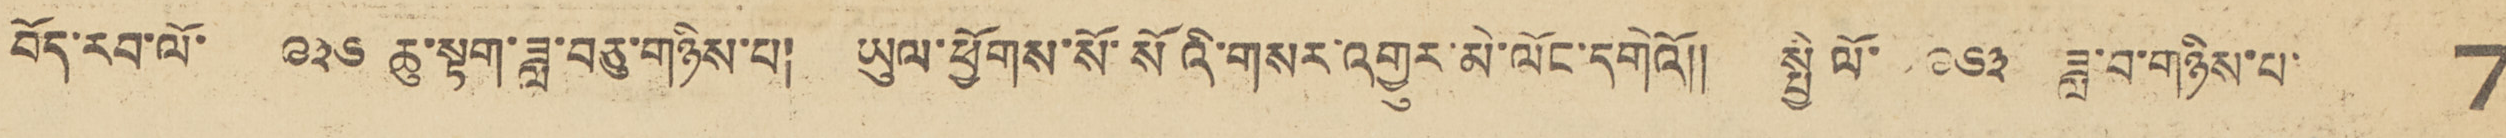བོད་རབ་ལོ་ ༩༣༦ ཆུ་སྟག་ཟླ་བཅུ་གཉིས་པ། ཡུལ་ཕྱོགས་སོ་སོའི་གསར་འགྱུར་མེ་ལོང་དགེའོ།། སྤྱི་ལོ་ ༩༦༣ ཟླ་བ་གཉིས་པ་ 7
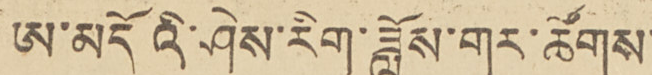ཨ་མདོའི་ཤེས་རིག་ཟློས་གར་ཚོགས་
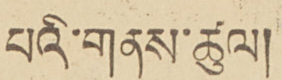པའི་གནས་ཚུལ།
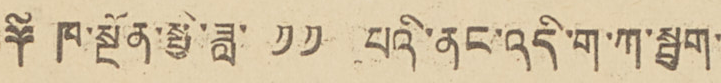༈ ཁ་སྔོན་སྤྱི་ཟླ་ ༡༡ པའི་ནང་འདི་ག་ཀ་སྦུག་
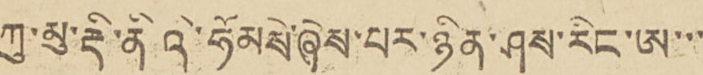ཀུ་མུ་རྡི་ནིའི་ཧོམསེ་ཞེས་པར་ཉིན་ཤས་རིང་ཨ་་་
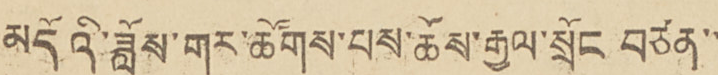མདོའི་ཟློས་གར་ཚོགས་པས་ཆོས་རྒྱལ་སྲོང བཙན་་
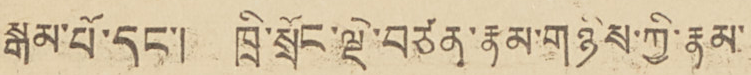སྒམ་པོ་དང་། ཁྲི་སྲོང་ལྡེ་བཙན་རྣམ་གཉིས་ཀྱི་རྣམ་
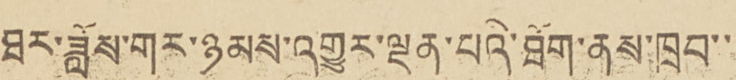ཐར་ཟློས་གར་ཉམས་འགྱུར་ལྡན་པའི་ཐོག་ནས་ཁྲབ་་་
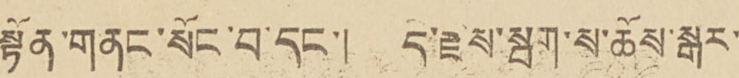སྟོན་གནང་སོང་བ་དང་། དེ་རྗས་སྦག་ས་ཆོས་སྒར་
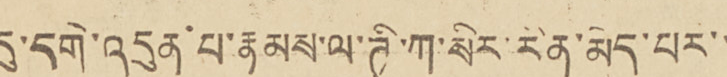དུ་དགེ་འདུན་པ་རྣམས་ལ་ཊེ་ཀ་སིར་རིན་མེད་པར་་
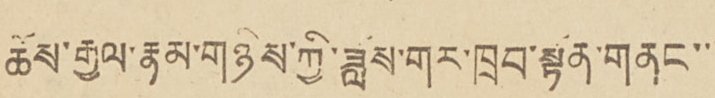ཆོས་རྒྱལ་རྣམ་གཉིས་ཀྱི་ཟློས་གར་ཁྲབ་སྟོན་གནང་་་
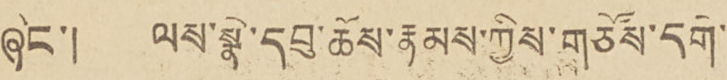ཞིང་། ལས་སྣེ་དབུ་ཆོས་རྣམས་ཀྱིས་གཙོས་དགེ་་
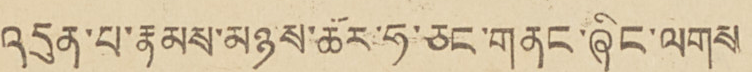འདུན་པ་རྣམས་མཉམ་ཆོར་ཧ་ཅང་གནང་ཞིང་ལགས
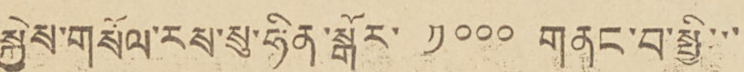སྐྱེས་གསོལ་རས་སུ་ཧིན་སྒོར་ ༡༠༠༠ གནང་བ་སྤྱི་་་
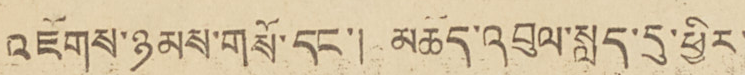འཇོགས་ཉམས་གསོ་དང་། མཆོད་འབུལ་སླད་དུ་ཕྱིར་
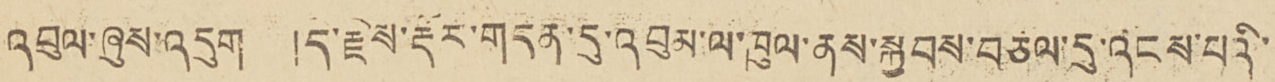འབུལ་ཞུས་འདུག །དེ་རྗེས་རྡོར་གདན་དུ་འབུམ་ལ་ཁུལ་ནས་སྐྱབས་བཅལ་དུ་འོངས་པའི་
